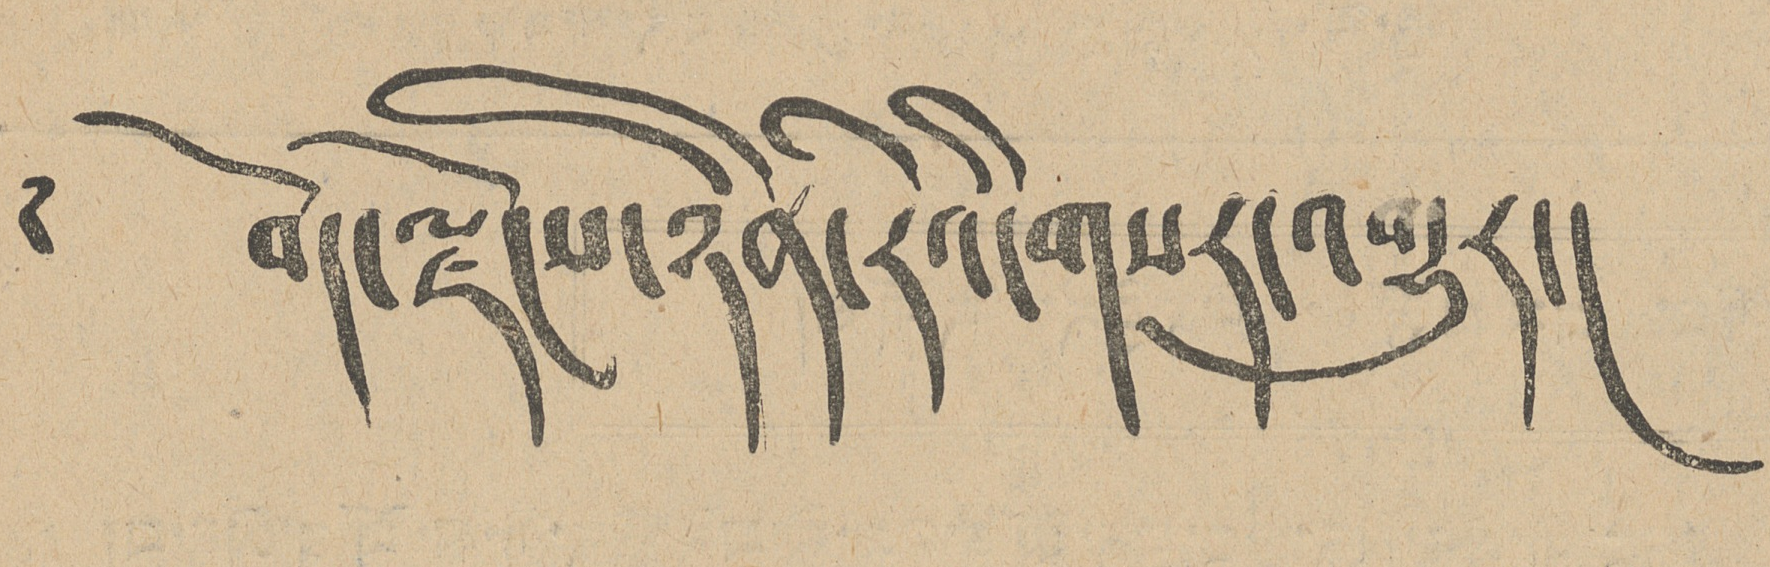༄ བོད་ལྗོངས་ཉིན་རེའི་གསར་འགྱུར།
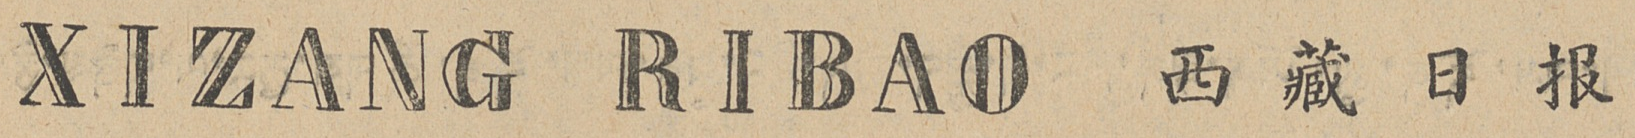XIZANG RIBAO 西 藏 日 报
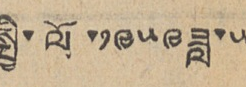སྤྱི་ལོ་༡༩༥༩ཟླ་༥
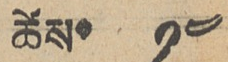ཚེས་ ༡༤
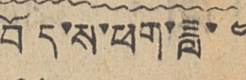བོད་ས་ཕག་ཟླ་༤
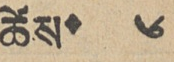ཚེས་ ༦
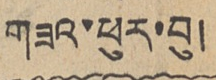གཟའ་ཕུར་བུ།
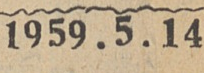1959.5.14
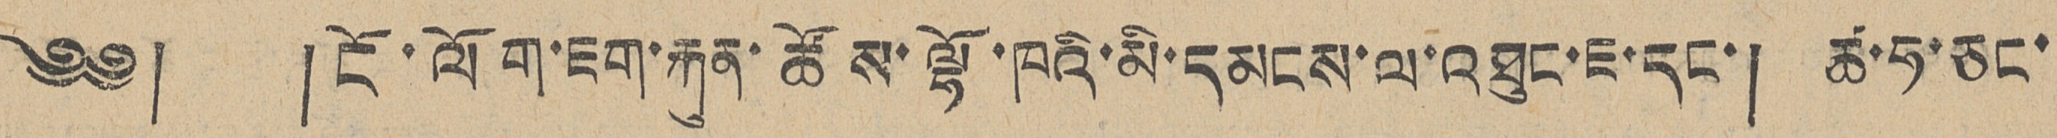༄༅། །ངོ་ལོག་ཇག་རྐུན་ཚོས་ལྷོ་ཁའི་མི་དམངས་ལ་འཐུང་ཇ་དང་། ཚ་ཧ་ཅང་
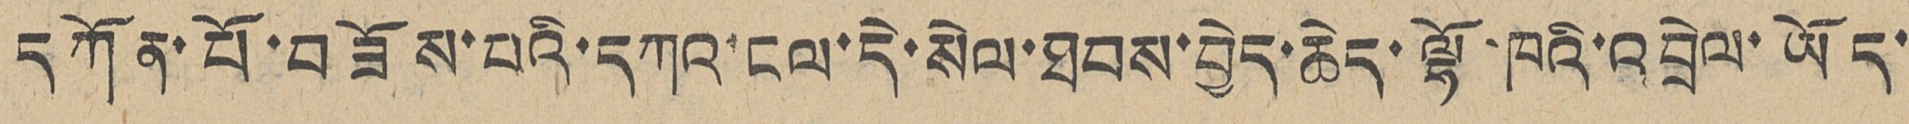དཀོན་པོ་བཟོས་པའི་དཀའ་ངལ་དེ་སེལ་ཐབས་བྱེད་ཆེད་ལྷོ་ཁའི་འབྲེལ་ཡོད་
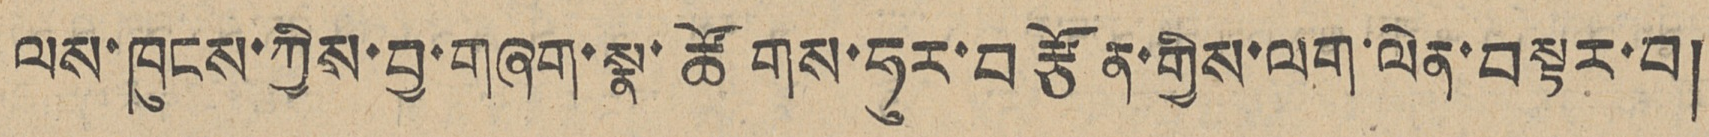ལས་ཁུངས་ཀྱིས་བྱས་གཞག་སྣ་ཚོགས་ཧུར་བརྩོན་གྱིས་ལག་ལེན་བསྟར་བ།
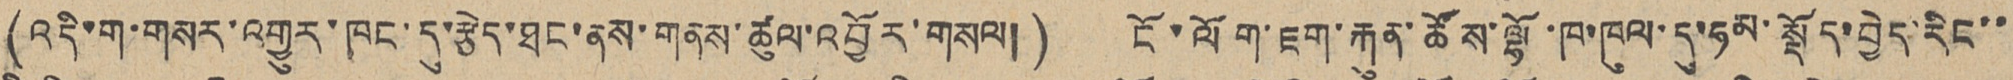(འདི་ག་གསར་འགྱུར་ཁང་དུ་རྩེད་ཐང་ནས་གནས་ཚུལ་འབྱོར་གསལ།) ངོ་ལོག་ཇག་རྐུན་ཚོས་ལྷོ་ཁ་ཁུལ་དུ་ཧམ་སྡོད་བྱེད་རིང་་
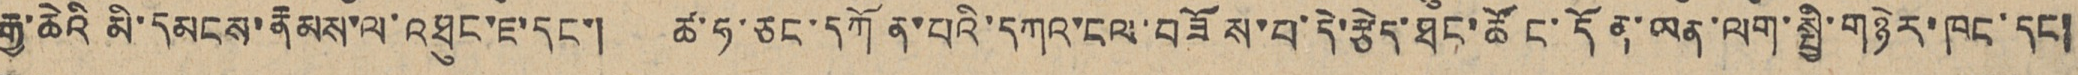རྒྱ་ཆེའི མི་དམངས་རྣམས་ལ་འཐུང་ཇ་དང་། ཚ་ཧ་ཅང་དཀོན་པའི་དཀའ་ངལ་བཟོས་པ་དེ་རྩེད་ཐང་ཚོང་དོན་ཡན་ལག་སྤྱི་གཉེར་ཁང་དང།
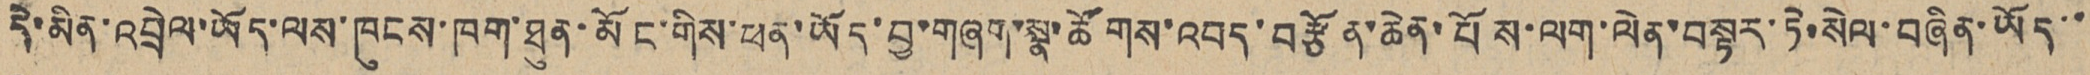དེ་མིན་འབྲེལ་ཡོད་ལས་ཁུངས་ཁག་ཐུན་མོང་གིས་ཕན་ཡོད་བྱ་གཞག་སྣ་ཚོགས་འབད་བརྩོན་ཆེན་པོས་ལག་ལེན་བསྟར་ཏེ་སེལ་བཞིན་ཡོད་་
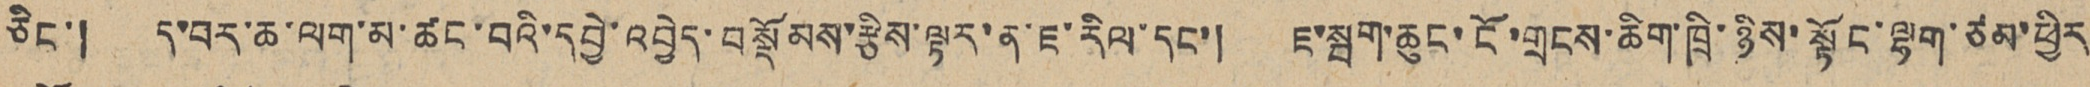ཅིང་། ད་བར་ཆ་ལག་མ་ཚང་བའི་དབྱེ་འབྱེད་བསྡོམས་རྩིས་ལྟར་ན་ཇ་རིལ་དང་། ཇ་སྦག་ཆུང་ངོ་གྲངས་ཆིག་ཁྲི་ཉིས་སྟོང་ལྷག་ཙམ་ཕྱིར
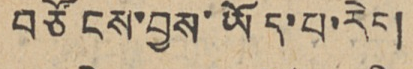བཙོངས་བྱས་ཡོད་པ་རེད།
